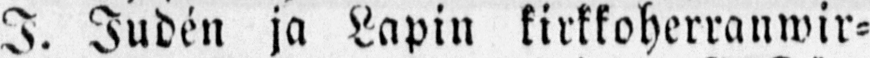I. Judén ja Lapin kirkkoherranwir-
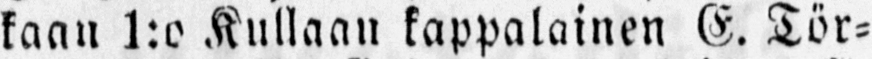kaan 1:o Kullaan kappalainen E. Tör-
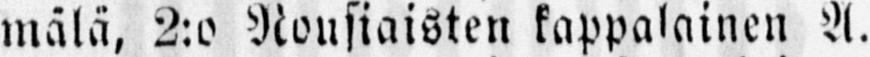mälä, 2:o Nousiaisten kappalainen A.
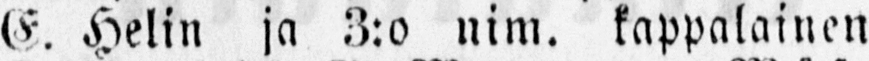E. Helin ja З:o nim. kappalainen
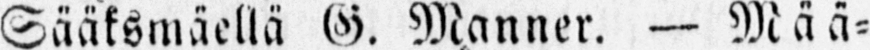Sääksmäellä G. Manner. — Mää-
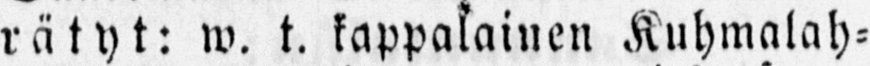rätyt: w. t. kappalainen Kuhmalah-
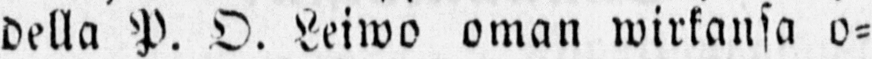della P. O. Leiwo oman wirkansa o-
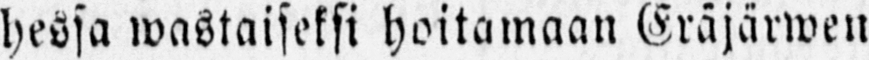hessa wastaiseksi hoitamaan Eräjärwen
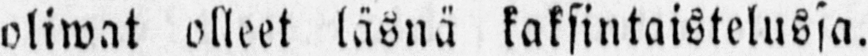oliwat olleet läsnä kaksintaistelussa.
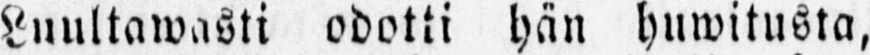Luultawasti odotti hän huwitusta,
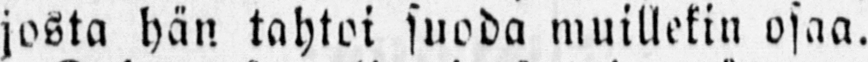josta hän tahtoi suoda muillekin osaa.
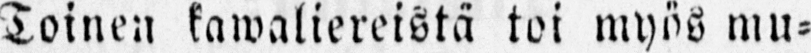Toinen kawaliereistä toi myös mu-
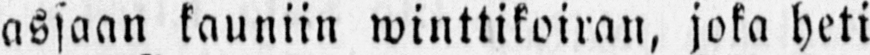assaan kauniin winttikoiran, joka heti
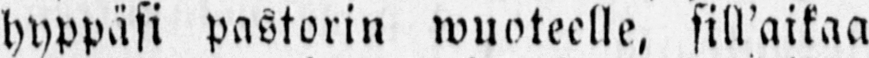hyppäsi pastorin wuoteelle, sill'aikaa
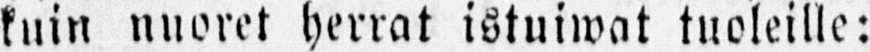kuin nuoret herrat istuiwat tuoleille:
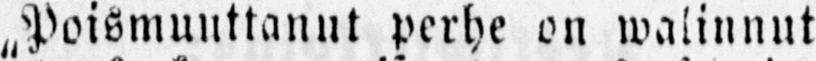„Poismuuttanut perhe on walinnut
